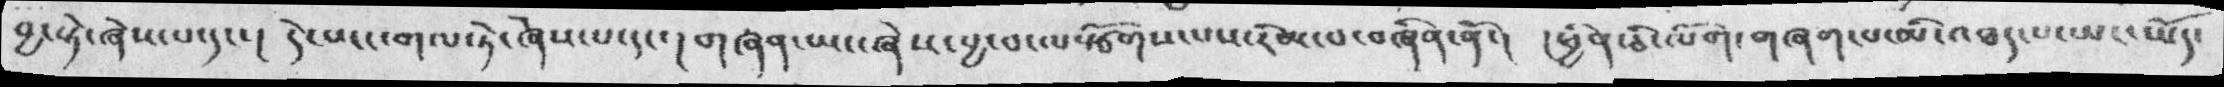བྱ་སྟེ་ཞེས་༷པ་དང་།   དེ་ཡང་གལ་ཏེ་ཞེས་པ་དང་། གཞན་ཡང་ཞེས་བྱ་བ་ལསྩོགས་པས་རིམ་པ་བཞིན་ནོ་།    །ཕྱིན་ཅི་ལོག་གཞག་པ་མི་འཐད་པ་ཡང་ཡོད་
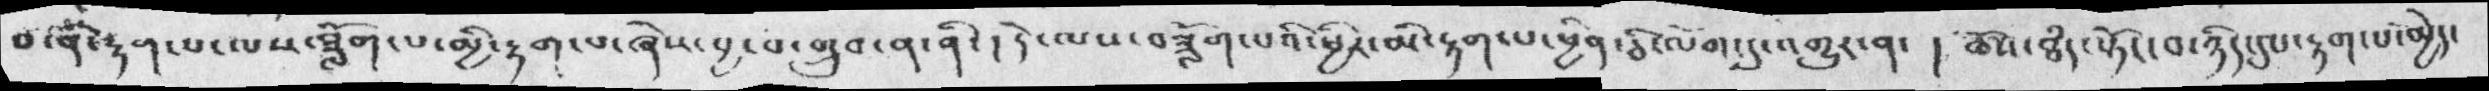བ་ནི་རྟག་པ་ལས་ཟློག་པ་མྱི་རྟག་པ་ཞེས་བྱ་བ་གྲུབ་ན་ནི་། དེ་ལས་བཟློག་པའི་ཕྱིར་མི་རྟག་པ་ཕྱིན་ཅི་ལོག་དུ་འགྱུར་ན་   ། ཆོས་ཐདཾ་སྟོང་བ་ཉིད་དུས་རྟག་པ་མྱེད་
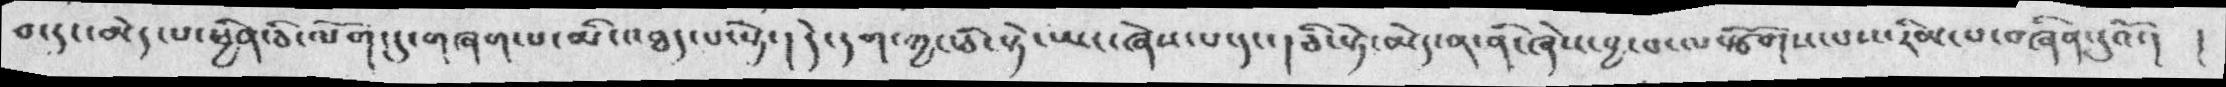བ་དང་མེད་པ་ཕྱིན་ཅི་ལོག་དུ་གཞག་པ་མི་འཐད་པ་སྟེ་། དེ་དག་ཀྱང་ཅི་སྟེ་ཡང་ཞེས་པ་དང་། ཅི་སྟེ་མེད་ན་ནི་ཞེས་བྱ་བ་ལསྩོགས་པས་རིམ་པ་བཞིན་དུའོ་།  །
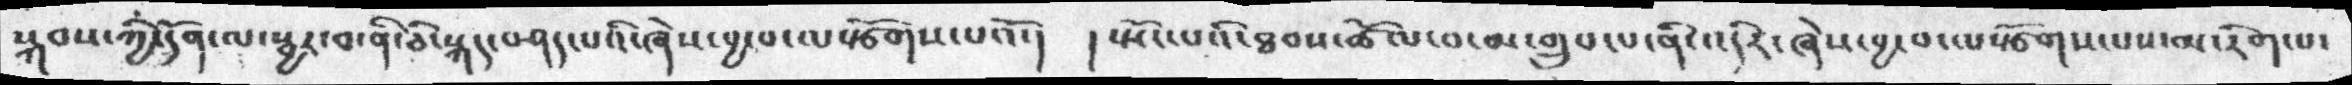སྐབས་ཀྱི་དོནལ་སྦྱར་བ་ནི་ཅི་སྐད་བཤད་པའི་ཞེས་བྱ་བ་ལ་སྩོགས་པའོ་།  ། སྤོང་པའི་ཐབས་ཚོལ་བ་མ་གྲུབ་པ་ནི་འདིར་ཞེས་བྱ་བ་ལསྩོགས་པས་མ་རིག་པ་
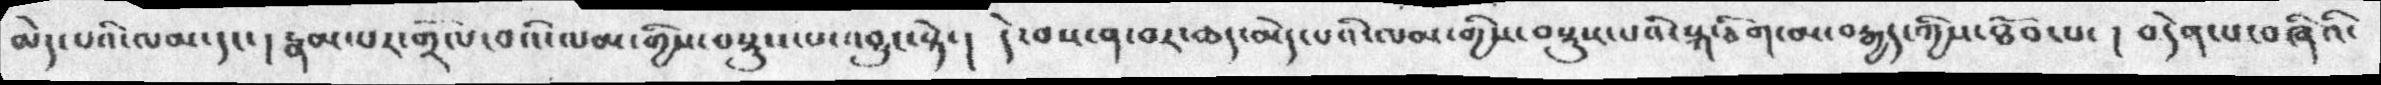མེད་པའི་ལམ་དང་།  རྣམ་པར་གྲོལ་བའི་ལམ་གྱིས་བསྡུས་པ་འབྱུང་སྟེ་། དེ་བས་ན་བར་ཆད་མེད་པའི་ལམ་གྱིས་བསྡུས་པའི་སྐ་ཅིག་མ་བརྒྱད་ཀྱིས་ཐོབ་པ་།  བདེན་པ་བཞིའི་
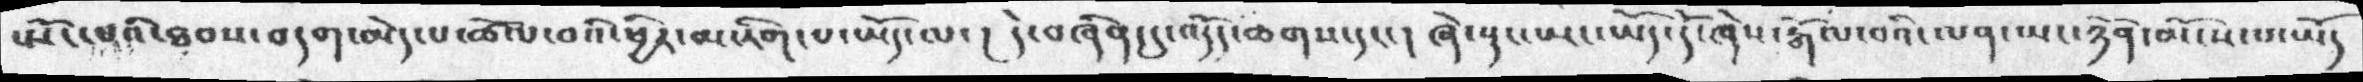སྤོང་པའི་ཐབས་བདག་མེད་པ་ཚོལ་བའི་ཕྱིར་མ་རིག་པ་ཡོད་ལ་། དེ་བཞིན་དུ་འདོད་ཆགས་དང་། ཞེ་སྡང་ཡང་ཡོད་དོ་ཞེས་རྒོལ་བའི་ལན་ཡང་ཉོན་མོངས་པ་ཡོད
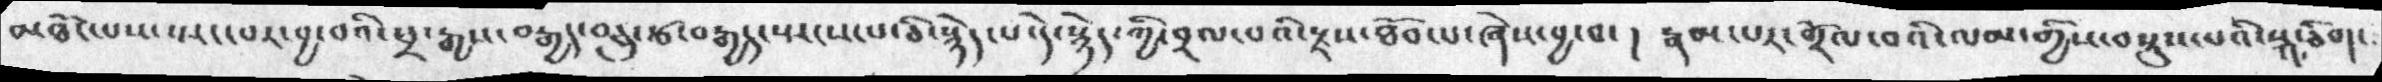མཐོང་པས་སྤང་བར་བྱ་བའི་ཕྲ་རྒྱས་བརྒྱད་བཅུ་རྩ་བརྒྱད་སྤངས་པ་ཅི་སྙེད་པ་དེ་སྙེད་ཀྱི་བྲལ་བའི་རྫས་ཐོབ་པ་ཞེས་བྱ་བ་། རྣམ་པར་གྲོལ་བའི་ལམ་གྱིས་བསྡུས་པའི་སྐ་ཅིག་
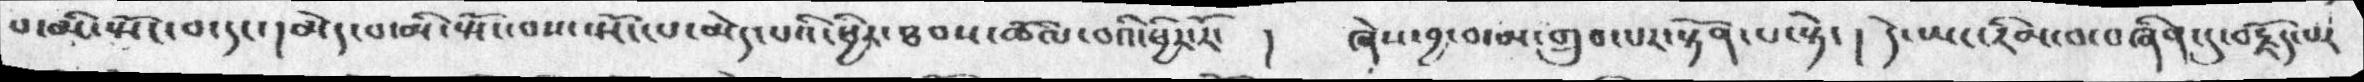པ་མི་སྤོང་བ་དང་།མེད་པ་མི་སྤོང་བས་སྤོང་པ་མེད་པའི་ཕྱིར་ཐབས་ཚོལ་བའི་ཕྱིར་རོ་  །   ཞེས་བྱ་བ་མ་གྲུབ་པར་སྟོན་པ་སྟེ་། དེ་ཡང་རིམ་བ་བཞིན་དུ་བརྗོད་པར་
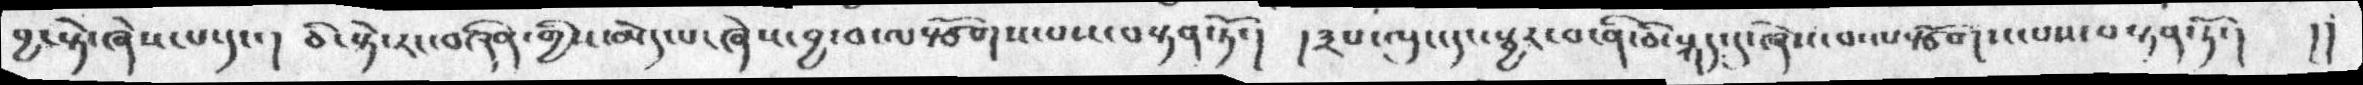བྱ་སྟེ་ཞེས་པ་དང་།  ཅི་སྟེ་རང་བཞིན་གྱིས་མེད་པ་ཞེས་བྱ་བ་ལསྩོགས་པས་བསྟན་ཏོ་།  །༣པ་ལུང་དང་སྦྱར་བ་ནི་ཅི་སྐད་དུ་ཞེས་བ་ལསྩོགས་པས་བསྟན་ཏོ་།  །།
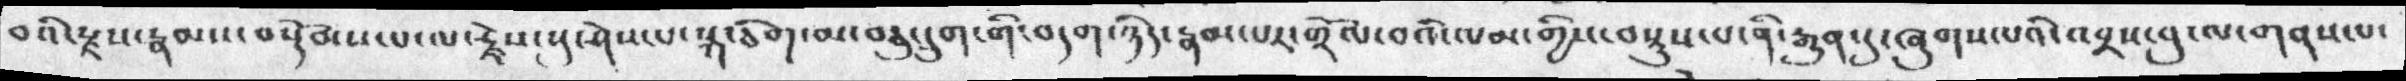བའི་རྫས་རྣམས་བསྡོམས་པ་ལ་རྗེས་སུ་ཤེས་པ་སྐ་ཅིག་མ་བཅུ་དྲུག་གི་བདག་ཉིད་རྣམ་པར་གྲོལ་བའི་ལམ་གྱིས་བསྡུས་པ་ནི་རྒྱུན་དུ་ཞུགས་པའི་འབྲས་བུ་ལ་གནས་པ་
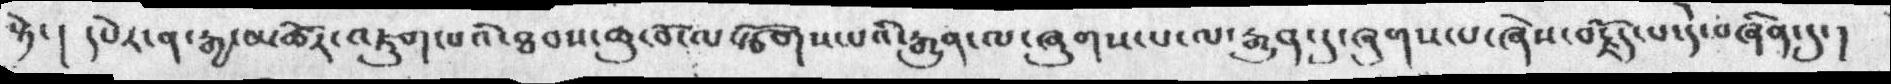སྟེ་།  དཔེར་ན་རྒྱ་མཚོར་འཇུག་པའི་ཐབས་ཆུ་བོ་ལསྩོགས་པའི་རྒྱུན་ལ་ཞུགས་པ་ལ་རྒྱུན་དུ་ཞུགས་པ་ཞེས་བརྗོད་པ་དེ་བཞིན་དུ་།
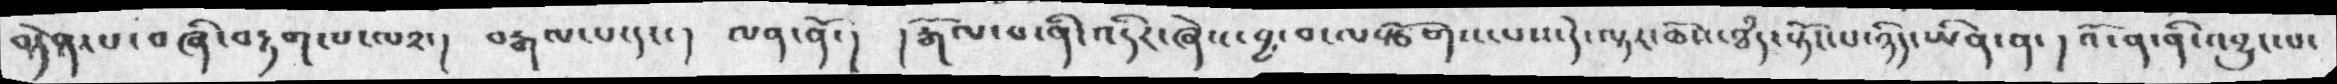བཏེན་པ་བཞི་བརྟག་པ་ལ༢་།  བརྒལ་པ་དང་། ལན་ནོ་།  །རྒོལ་བ་ནི་འདིར་ཞེས་བྱ་བ་ལསྩོགས་པས་དེ་ལྟར་ཆོས་ཐཾད་སྟོང་པ་ཉིད་ཡིན་ན་ ། འོ་ན་ནི་འབྱུང་པ་
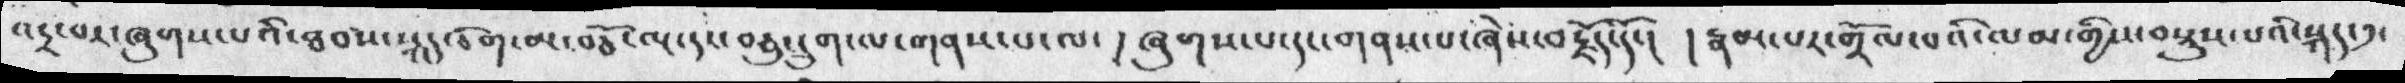འདྲ་པར་ཞུགས་པའི་ཐབས་སྐད་ཅིག་མ་བཅོ་ལྔ་དང་བཅུ་དྲུག་ལ་གནས་པ་ལ་ ། ཞུགས་པ་དང་གནས་པ་ཞེས་བརྗོད་དོ་།  །རྣམ་པར་གྲོལ་པའི་ལམ་གྱིས་བསྡུས་པའི་སྐད་༡་
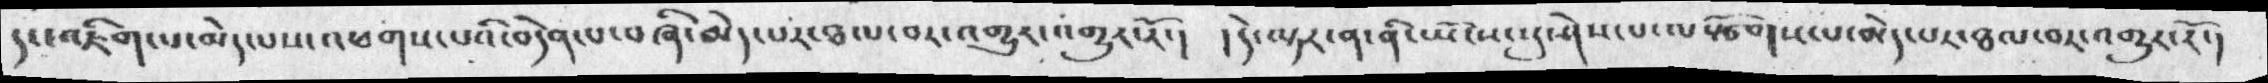དང་འཇིག་པ་མེད་པས་འཕགས་པའི་བདེན་པ་བཞི་མེད་པར་ཐལ་བར་འགྱུར་འགྱུར་རོ་། །དེ་ལྟར་ན་ནི་ཡོངས་སུ་ཤེས་པ་ལསྩོགས་པ་མེད་པར་ཐལ་བར་འགྱུར་རོ་།
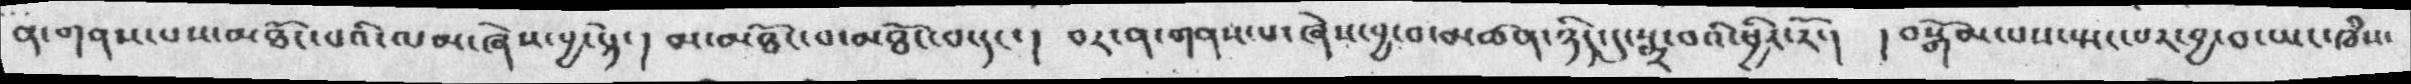ན་གནས་པས་མཐོང་པའི་ལམ་ཞེས་བྱ་སྟེ་། མ་མཐོང་པ་མཐོང་བ་དང་། བར་ན་གནས་པ་ཞེས་བྱ་བ་མཚན་ཉིད་དུ་སྨྲ་བའི་ཕྱིར་རོ་།  །བསྒོམ་པས་སྤང་པར་བྱ་བ་ཡང་ཁཾས་
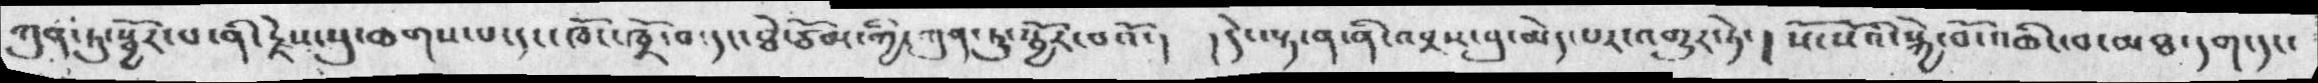ཀུན་ཏུ་སྦྱོར་བ་ནི་རྗེས་སུ་ཆགས་པ་དང་ཁོང་ཁྲོ་བ་དང་ཐེ་ཙོམ་ཀྱི་ཀུན་ཏུ་སྦྱོར་བའོ་།  །དེ་ལྟ་ན་ནི་འབྲས་བུ་མེད་པར་འགྱུར་ཏེ་།  སོ་སོའི་སྐྱེ་བོ་འཆིང་བ་མཐ་དག་དང་
